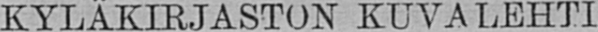KYLÄKIRJASTON KUVALEHTI.
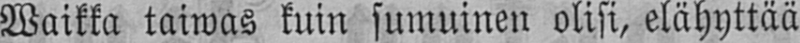Waikka taiwas kuin sumuinen olisi, elähyttää
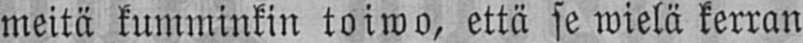meitä kumminkin toiwo, että se wielä kerran
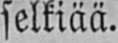selkiää.
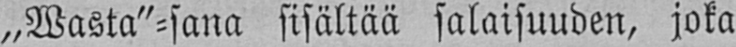„Wasta"-sana sisältää salaisuuden, joka
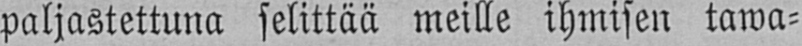paljastettuna selittää meille ihmisen tawa-
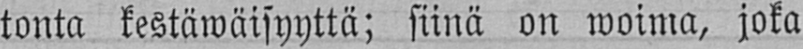tonta kestäwäisyyttä; siinä on woima, joka
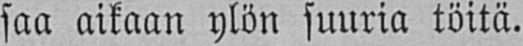saa aikaan ylön suuria töitä.
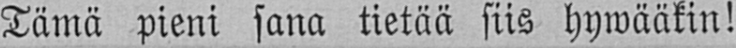Tämä pieni sana tietää siis hywääkin!
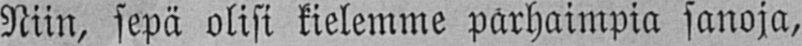Niin, sepä olisi kielemme parhaimpia sanoja,
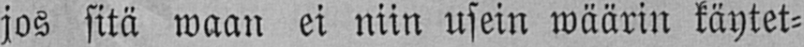jos sitä waan ei niin usein wäärin käytet-
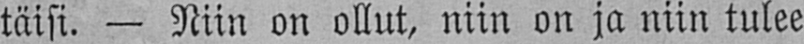täisi. — Niin on ollut, niin on ja niin tulee
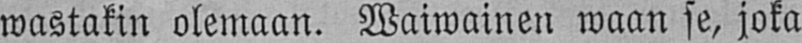wastakin olemaan. Waiwainen waan se, joka
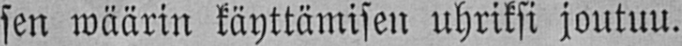sen wäärin käyttämisen uhriksi joutuu.
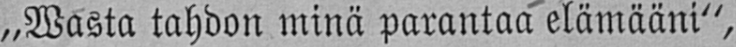„Wasta tahdon minä parantaa elämääni",
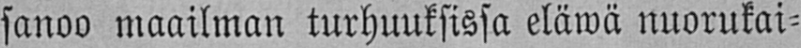sanoo maailman turhuuksissa eläwä nuorukai-
